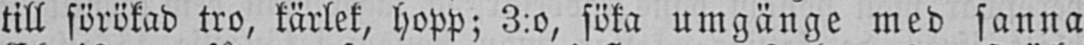till förökad tro, kärlek, hopp; 3:o, söka umgänge med sanna
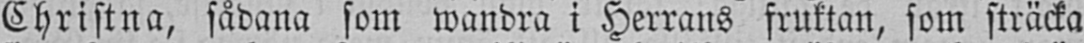Christna, sådana som wandra i Herrans fruktan, som sträcka
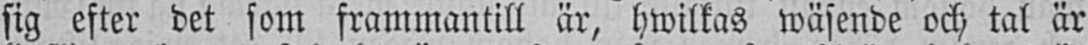sig efter det som frammantill är, hwilkas wäsende och tal är
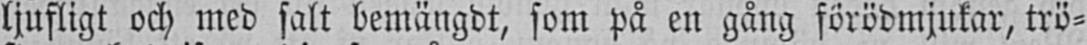ljufligt och med salt bemängdt, som på en gång förödmjukar, trö-
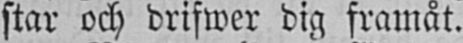star och drifwer dig framåt.
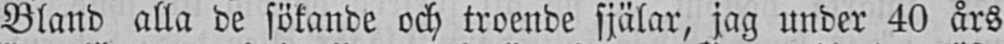Bland alla de sökande och troende själar, jag under 40 års
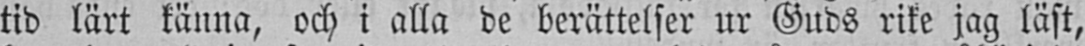tid lärt känna, och i alla de berättelser ur Guds rike jag läst,
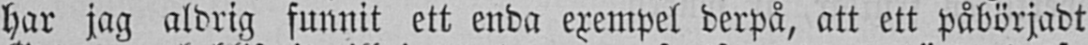har jag aldrig funnit ett enda exempel derpå, att ett påbörjadt
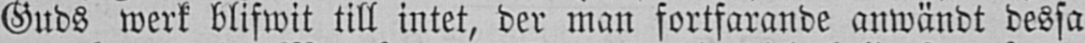Guds werk blifwit till intet, der man fortfarande anwändt dessa
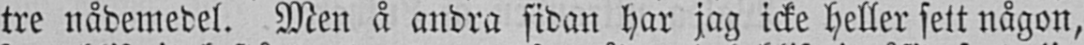tre nådemedel. Men å andra sidan har jag icke heller sett någon,
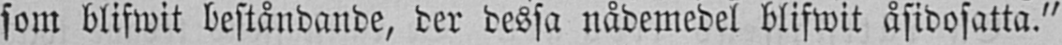som blifwit beståndande, der dessa nådemedel blifwit åsidosatta."
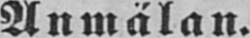Anmälan.
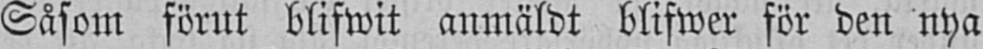Såsom förut blifwit anmäldt blifwer för den nya
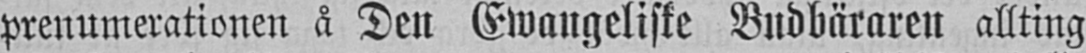prenumerationen å Den Ewangeliske Budbäraren allting
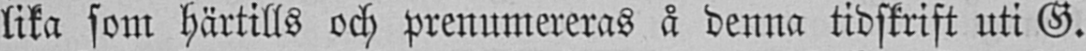lika som härtills och prenumereras å denna tidskrift uti G.
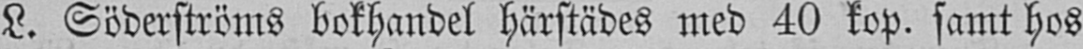L. Söderströms bokhandel härstädes med 40 kop. samt hos
